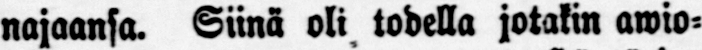najaansa. Siinä oli todella jotakin awio-
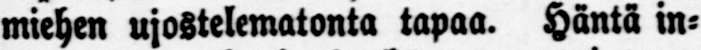miehen ujostelematonta tapaa. Häntä in-
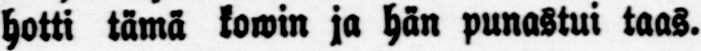hotti tämä kowin ja hän punastui taas.
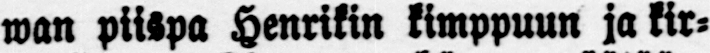wan piispa Henrikin kimppuun ja kir-
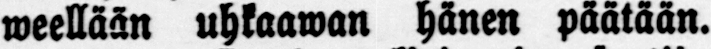weellään uhkaawan hänen päätään.
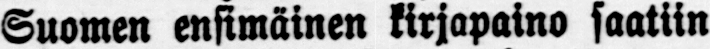Suomen ensimäinen kirjapaino saatiin
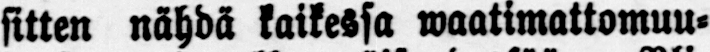sitten nähdä kaikessa waatimattomuu-
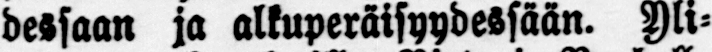dessaan ja alkuperäisyydessään. Yli-
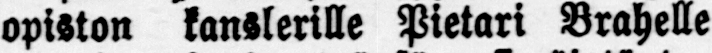opiston kanslerille Pietari Brahelle
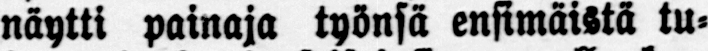näytti painaja työnsä ensimäistä tu-
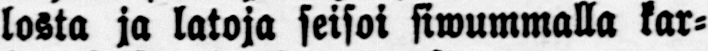losta ja latoja seisoi siwummalla kar-
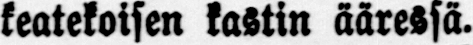keatekoisen kastin ääressä.
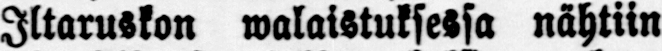Iltaruskon walaistuksessa nähtiin
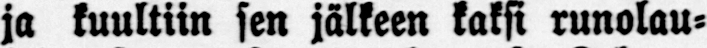ja kuultiin sen jälkeen kaksi runolau-
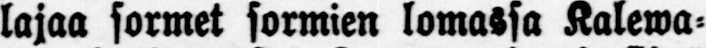lajaa sormet sormien lomassa Kalewa-
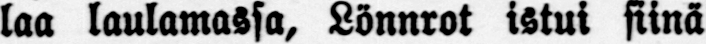laa laulamassa, Lönnrot istui siinä
